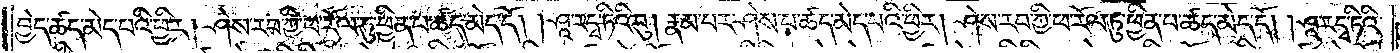བྱེད་ཚད་མེད་པའི་ཕྱིར། ཤེས་རབ་ཀྱི་ཕ་རོལ་ཏུ་ཕྱིན་པ་ཚད་མེད་དོ། །ཤཱ་རདྭ་ཏིའི་བུ། རྣམ་པར་ཤེས་པ་ཚད་མེད་པའི་ཕྱིར། ཤེས་རབ་ཀྱི་ཕ་རོལ་ཏུ་ཕྱིན་པ་ཚད་མེད་དོ། །ཤཱ་ར་དྭ་ཏིའི་
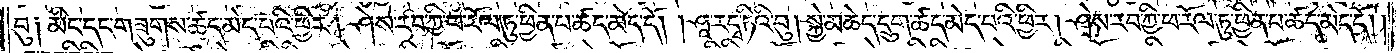བུ༑ མིང་དང་གཟུགས་ཚད་མེད་པའི་ཕྱིར། ཤེས་རབ་ཀྱི་ཕ་རོལ་ཏུ་ཕྱིན་པ་ཚད་མེད་དོ། །ཤཱ་རདྭ་ཏིའི་བུ། སྐྱེ་མཆེད་དྲུག་ཚད་མེད་པའི་ཕྱིར། ཤེས་རབ་ཀྱི་ཕ་རོལ་ཏུ་ཕྱིན་པ་ཚད་མེད་དོ། །
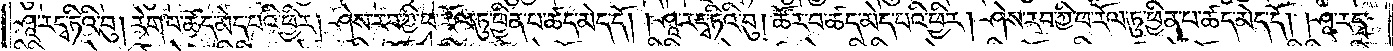ཤཱ་རདྭ་ཏིའི་བུ། རེག་པ་ཚད་མེད་པའི་ཕྱིར། ཤེས་རབ་ཀྱི་ཕ་རོལ་ཏུ་ཕྱིན་པ་ཚད་མེད་དོ། །ཤཱ་རདྭ་ཏིའི་བུ། ཚོར་བ་ཚད་མེད་པའི་ཕྱིར། ཤེས་རབ་ཀྱི་ཕ་རོལ་ཏུ་ཕྱིན་པ་ཚད་མེད་དོ། །ཤཱ་རདྭ་
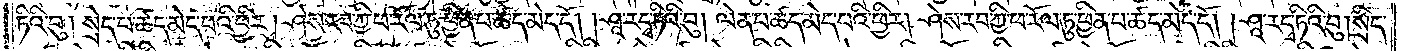ཏིའི་བུ། སྲེད་པ་ཚད་མེད་པའི་ཕྱིར། ཤེས་རབ་ཀྱི་ཕ་རོལ་ཏུ་ཕྱིན་པ་ཚད་མེད་དོ། །ཤཱ་རདྭ་ཏིའི་བུ། ལེན་པ་ཚད་མེད་པའི་ཕྱིར། ཤེས་རབ་ཀྱི་ཕ་རོལ་ཏུ་ཕྱིན་པ་ཚད་མེད་དོ། །ཤཱ་རདྭ་ཏིའི་བུ། སྲིད་
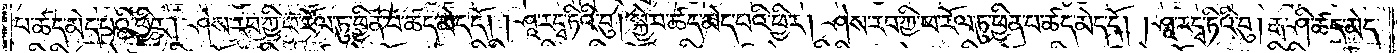པ་ཚད་མེད་པའི་ཕྱིར། ཤེས་རབ་ཀྱི་ཕ་རོལ་ཏུ་ཕྱིན་པ་ཚད་མེད་དོ། །ཤཱ་རདྭ་ཏིའི་བུ། སྐྱེ་བ་ཚད་མེད་པའི་ཕྱིར། ཤེས་རབ་ཀྱི་ཕ་རོལ་ཏུ་ཕྱིན་པ་ཚད་མེད་དོ། །ཤཱ་རདྭ་ཏིའི་བུ། རྒ་ཤི་ཚད་མེད་
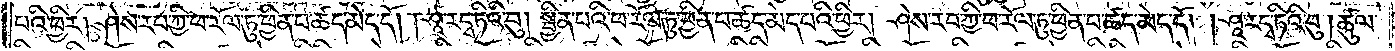པའི་ཕྱིར། ཤེས་རབ་ཀྱི་ཕ་རོལ་ཏུ་ཕྱིན་པ་ཚད་མེད་དོ། །ཤཱ་རདྭ་ཏིའི་བུ། སྦྱིན་པའི་ཕ་རོལ་ཏུ་ཕྱིན་པ་ཚད་མེད་པའི་ཕྱིར། ཤེས་རབ་ཀྱི་ཕ་རོལ་ཏུ་ཕྱིན་པ་ཚད་མེད་དོ། །ཤཱ་རདྭ་ཏིའི་བུ། ཚུལ་
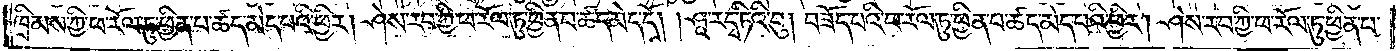ཁྲིམས་ཀྱི་ཕ་རོལ་ཏུ་ཕྱིན་པ་ཚད་མེད་པའི་ཕྱིར། ཤེས་རབ་ཀྱི་ཕ་རོལ་ཏུ་ཕྱིན་པ་ཚད་མེད་དོ། །ཤཱ་རདྭ་ཏིའི་བུ། བཟོད་པའི་ཕ་རོལ་ཏུ་ཕྱིན་པ་ཚད་མེད་པའི་ཕྱིར། ཤེས་རབ་ཀྱི་ཕ་རོལ་ཏུ་ཕྱིན་པ་
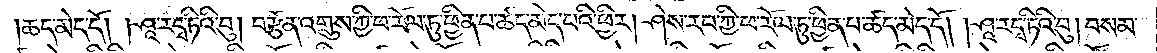ཚད་མེད་དོ། །ཤཱ་རདྭ་ཏིའི་བུ། བརྩོན་འགྲུས་ཀྱི་ཕ་རོལ་ཏུ་ཕྱིན་པ་ཚད་མེད་པའི་ཕྱིར། ཤེས་རབ་ཀྱི་ཕ་རོལ་ཏུ་ཕྱིན་པ་ཚད་མེད་དོ། །ཤཱ་རདྭ་ཏིའི་བུ། བསམ་
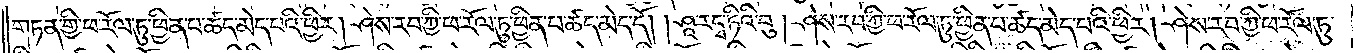གཏན་གྱི་ཕ་རོལ་ཏུ་ཕྱིན་པ་ཚད་མེད་པའི་ཕྱིར། ཤེས་རབ་ཀྱི་ཕ་རོལ་ཏུ་ཕྱིན་པ་ཚད་མེད་དོ། །ཤཱ་རདྭ་ཏིའི་བུ། ཤེས་རབ་ཀྱི་ཕ་རོལ་ཏུ་ཕྱིན་པ་ཚད་མེད་པའི་ཕྱིར། ཤེས་རབ་ཀྱི་ཕ་རོལ་ཏུ་
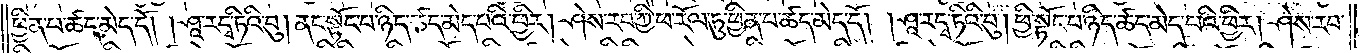ཕྱིན་པ་ཚད་མེད་དོ། །ཤཱ་རདྭ་ཏིའི་བུ། ནང་སྟོང་པ་ཉིད་ཚད་མེད་པའི་ཕྱིར། ཤེས་རབ་ཀྱི་ཕ་རོལ་ཏུ་ཕྱིན་པ་ཚད་མེད་དོ། །ཤཱ་རདྭ་ཏིའི་བུ། ཕྱི་སྟོང་པ་ཉིད་ཚད་མེད་པའི་ཕྱིར། ཤེས་རབ་
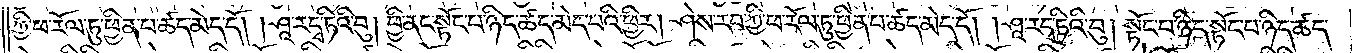ཀྱི་ཕ་རོལ་ཏུ་ཕྱིན་པ་ཚད་མེད་དོ། །ཤཱ་རདྭ་ཏིའི་བུ། ཕྱི་ནང་སྟོང་པ་ཉིད་ཚད་མེད་པའི་ཕྱིར། ཤེས་རབ་ཀྱི་ཕ་རོལ་ཏུ་ཕྱིན་པ་ཚད་མེད་དོ། །ཤཱ་རདྭ་ཏིའི་བུ། སྟོང་པ་ཉིད་སྟོང་པ་ཉིད་ཚད་
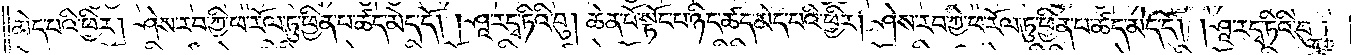མེད་པའི་ཕྱིར། ཤེས་རབ་ཀྱི་ཕ་རོལ་ཏུ་ཕྱིན་པ་ཚད་མེད་དོ། །ཤཱ་རདྭ་ཏིའི་བུ། ཆེན་པོ་སྟོང་པ་ཉིད་ཚད་མེད་པའི་ཕྱིར། ཤེས་རབ་ཀྱི་ཕ་རོལ་ཏུ་ཕྱིན་པ་ཚད་མེད་དོ། །ཤཱ་རདྭ་ཏིའི་བུ།
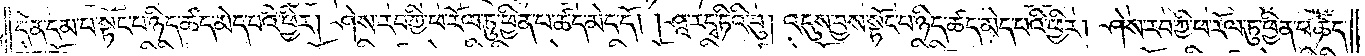དོན་དམ་པ་སྟོང་པ་ཉིད་ཚད་མེད་པའི་ཕྱིར། ཤེས་རབ་ཀྱི་ཕ་རོལ་ཏུ་ཕྱིན་པ་ཚད་མེད་དོ། །ཤཱ་རདྭ་ཏིའི་བུ། འདུས་བྱས་སྟོང་པ་ཉིད་ཚད་མེད་པའི་ཕྱིར། ཤེས་རབ་ཀྱི་ཕ་རོལ་ཏུ་ཕྱིན་པ་ཚད་
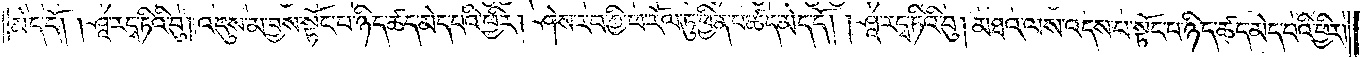མེད་དོ། །ཤཱ་རདྭ་ཏིའི་བུ། འདུས་མ་བྱས་སྟོང་པ་ཉིད་ཚད་མེད་པའི་ཕྱིར། ཤེས་རབ་ཀྱི་ཕ་རོལ་ཏུ་ཕྱིན་པ་ཚད་མེད་དོ། །ཤཱ་རདྭ་ཏིའི་བུ། མཐའ་ལས་འདས་པ་སྟོང་པ་ཉིད་ཚད་མེད་པའི་ཕྱིར།
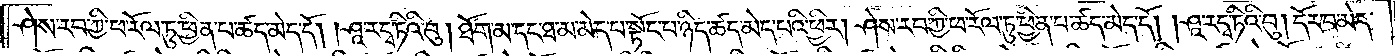ཤེས་རབ་ཀྱི་ཕ་རོལ་ཏུ་ཕྱིན་པ་ཚད་མེད་དོ། །ཤཱ་རདྭ་ཏིའི་བུ། ཐོག་མ་དང་ཐ་མ་མེད་པ་སྟོང་པ་ཉིད་ཚད་མེད་པའི་ཕྱིར། ཤེས་རབ་ཀྱི་ཕ་རོལ་ཏུ་ཕྱིན་པ་ཚད་མེད་དོ། །ཤཱ་རདྭ་ཏིའི་བུ། དོར་བ་མེད་
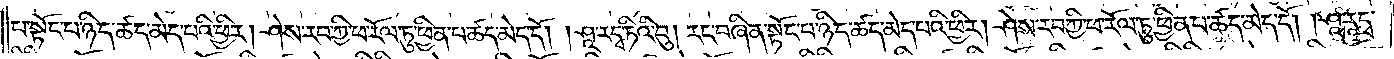པ་སྟོང་པ་ཉིད་ཚད་མེད་པའི་ཕྱིར། ཤེས་རབ་ཀྱི་ཕ་རོལ་ཏུ་ཕྱིན་པ་ཚད་མེད་དོ། །ཤཱ་རདྭ་ཏིའི་བུ། རང་བཞིན་སྟོང་པ་ཉིད་ཚད་མེད་པའི་ཕྱིར། ཤེས་རབ་ཀྱི་ཕ་རོལ་ཏུ་ཕྱིན་པ་ཚད་མེད་དོ། །ཤཱ་རདྭ་
